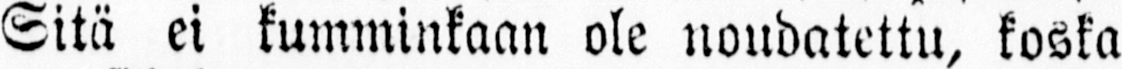Sitä ei kumminkaan ole noudatettu, koska
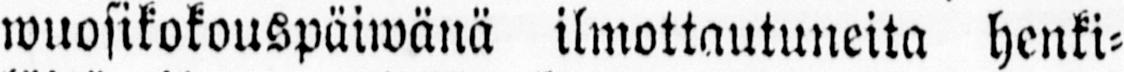wuosikokouspäiwänä ilmottautuneita henki-
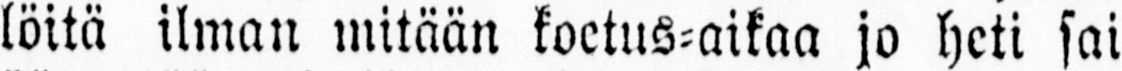löitä ilman mitään koetus-aikaa jo heti sai
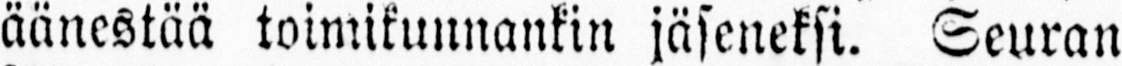äänestää toimikunnankin jäseneksi. Seuran
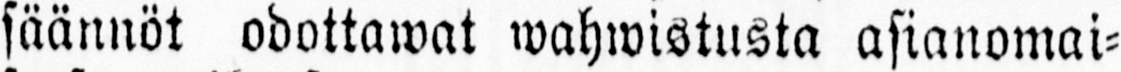säännöt odottawat wahwistusta asianomai-
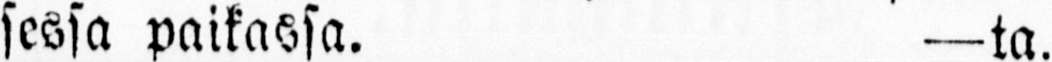sessa paikassa. —ta.
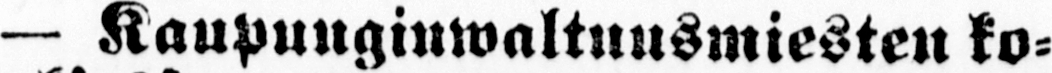— Kaupunginwaltuusmiesten ko-
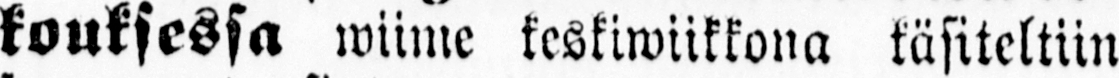kouksessa wiime keskiwiikkona käsiteltiin
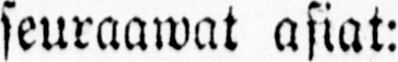seuraawat asiat:
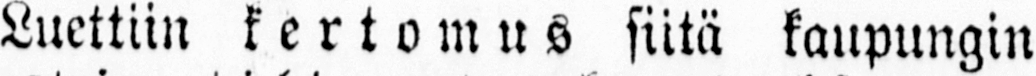Luettiin kertomus siitä kaupungin
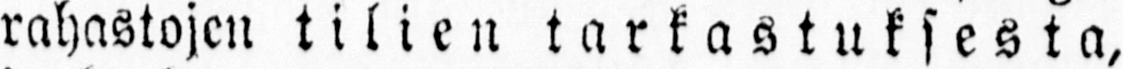rahastojen tilien tarkastuksesta,
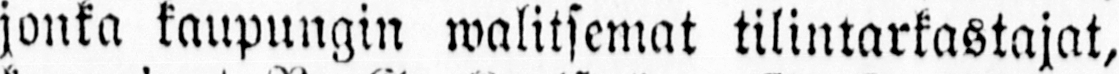jonka kaupungin walitsemat tilintarkastajat,
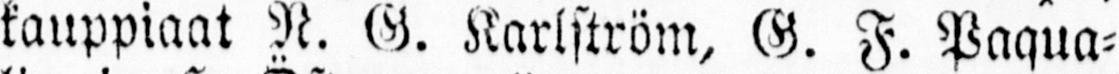kauppiaat N. G. Karlström, G. F. Paqua-
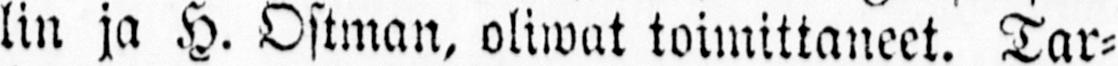lin ja H. Östman, oliwat toimittaneet. Tar-
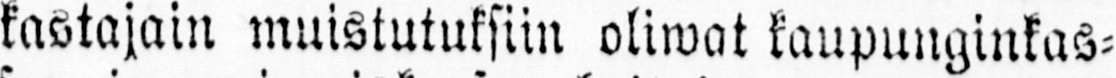kastajain muistutuksiin oliwat kaupunginkas-
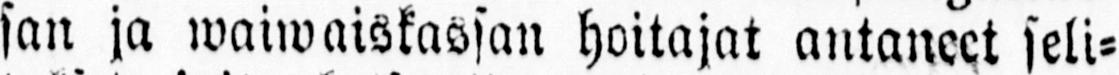san ja waiwaiskassan hoitajat antaneet seli-
